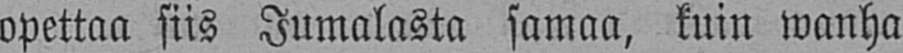opettaa siis Jumalasta samaa, kuin wanha
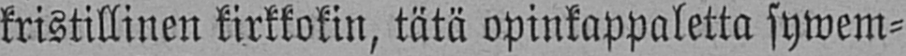kristillinen kirkkokin, tätä opinkappaletta sywem-
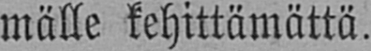mälle kehittämättä.
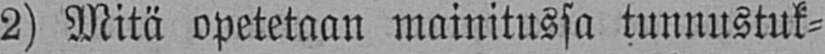2) Mitä opetetaan mainitussa tunnustuk-
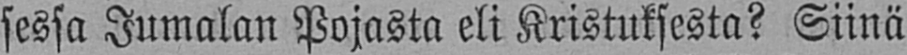sessa Jumalan Pojasta eli Kristuksesta? Siinä
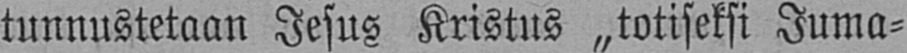tunnustetaan Jesus Kristus „totiseksi Juma-
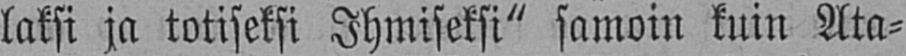laksi ja totiseksi Ihmiseksi" samoin kuin Ata-
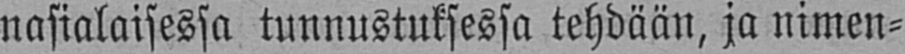nasialaisessa tunnustuksessa tehdään, ja nimen-
